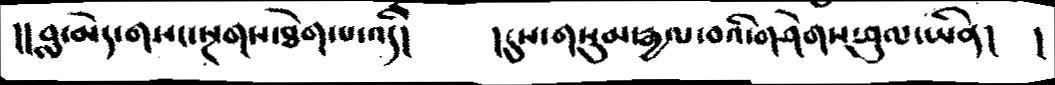།།བླ་མེད་གསང་སྔགས་ཐེག་པ་འདི།   །དུས་གསུམ་རྒྱལ་བའི་གཤེགས་ཤུལ་ཡིན།   །
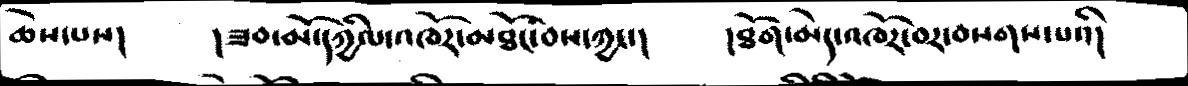ཆེས་པས།   །ཟབ་མོ་དཀྱིལ་འཁོར་མཐོང་བས་ཀྱང་།   །ཐོག་མེད་འཁོར་བར་བསགས་པའི།
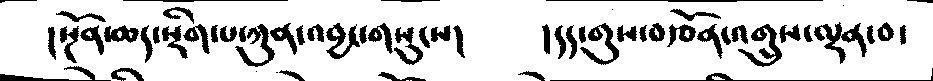།སྔོན་ཆད་སྡིག་པ་ཀུན་འབྱང་གསུངས།   །དད་གུས་བརྩོན་འགྲུས་ལྡན་བ་
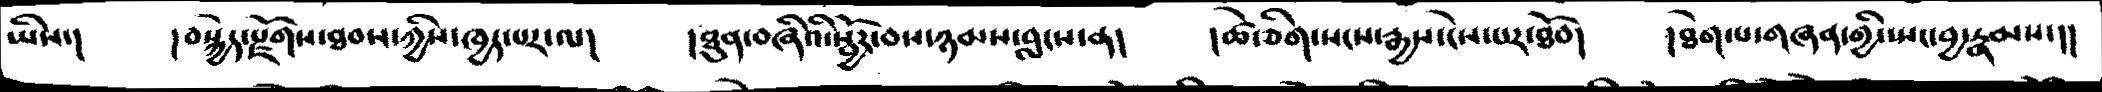ཡིས་།   །བསྐྱེད་རྫོགས་ཐབས་ཀྱིས་ཁྱད་པར་ལ།  །ཐུན་བཞིའི་སྦྱོར་བས་ཉམས་བླངས་ན།   །ཚེ་ཅིག་སངས་རྒྱས་ངེས་པར་ཐོབ།   །ཐེག་པ་གཞན་གྱི་སྤང་བྱ་རྣམས་།།
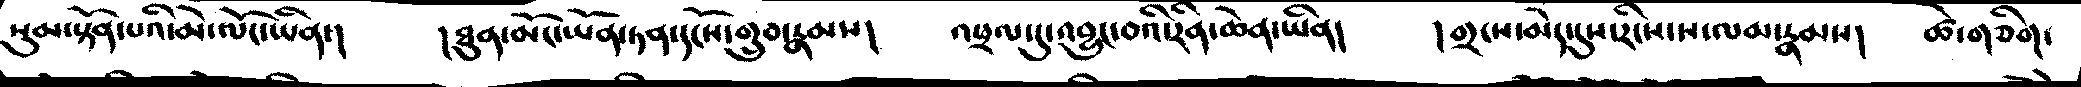སུམ་སྟོན་པའི་མེ་ལོང་ཡིན་།    །ཐུན་མོང་ཡོན་ཏན་དངོས་གྲུབ་རྣམས།  འཕྲལ་དུ་འབྱུང་བའི་རིན་ཆེན་ཡིན།   །གྲངས་མེད་དུས་རིངས་ས་ལམ་རྣམས།   ཚེ་གཅིག་
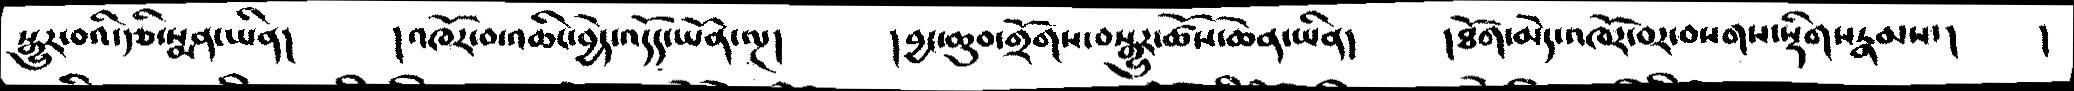སྒྱུར་བའི་རྩི་སྨན་ཡིན།    །འཁོར་བ་འཆིང་བྱེད་འདོད་ཡོན་ལྔ།   །བྱང་ཆུབ་གྲོགས་བསྒྱུར་ཚོས་ཆེན་ཡིན།   །ཐོག་མེད་འཁོར་བར་བསགས་སྡིགས་རྣམས་།   །
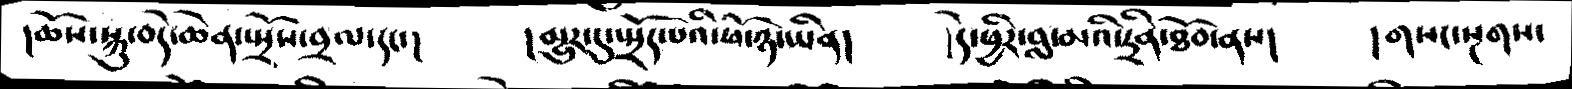།ཆོས་སྐུ་བདེ་ཆེན་སྤྲོས་བྲལ་དང་།      །མྱུར་དུ་སྤྲོད་པའི་ཕོ་ཉ་ཡིན།   །དེ་ཕྱིར་བླ་མའི་དྲིན་ཐོབ་ནས།    །གསང་སྔགས་
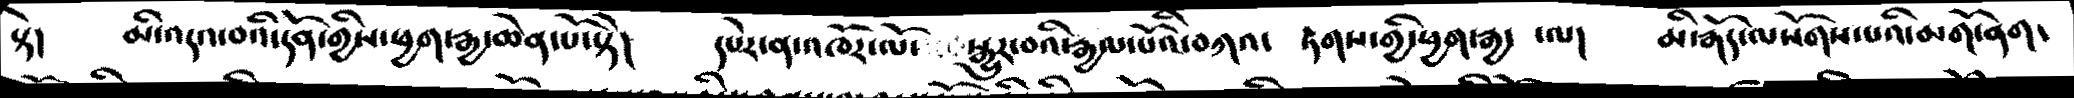སྟེ།    མི་འདའ་བའི་དོན་གྱིས་ཕྱག་རྒྱ་ཆེན་པོ་སྟེ།    དཔེར་ན་འཁོར་ལོ་སྒྱུར་བའི་རྒྱལ་པོའི་བཀའ་ རྟགས་གྱི་ཕྱག་རྒྱ་ལ།   མི་རྒོད་ལསོགས་པའི་མགོ་ནག་
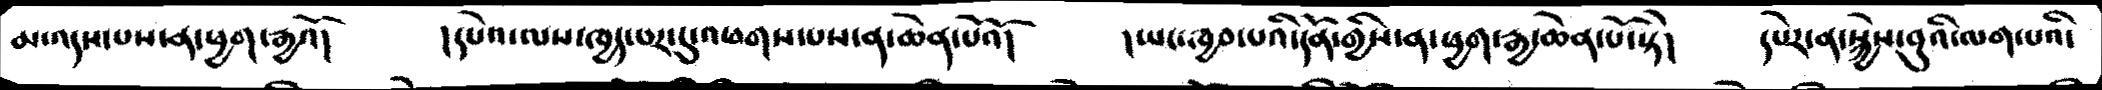མ་འདས་པས་ན་ཕྱག་རྒྱའོ།   །དཔེའ་ལས་ཁྱད་པར་དུ་འཕགས་པས་ན་ཆེན་པོའོ།   །ཡང་ཁྱབ་པའི་དོན་གྱིས་ན་ཕྱག་རྒྱ་ཆེན་པོ་སྟེ།   དཔེར་ན་སྐྱེས་བུའི་ལག་པའི་
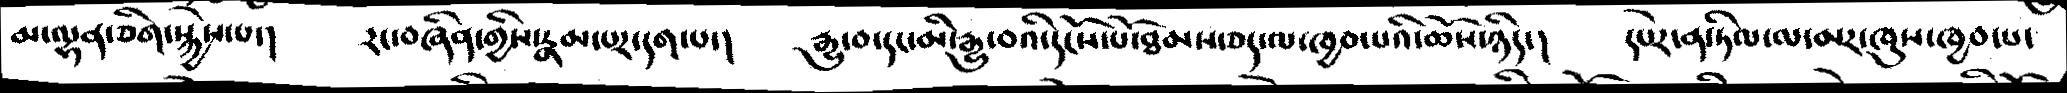མ་ལྷན་ཅིག་སྐྱེས་པ་།   རང་བཞིན་གྱིས་རྣམ་པར་དག་པ་།   རྒྱུ་བ་དང་མི་རྒྱུ་བའི་དངོས་པོ་ཐམས་ཅད་ལ་ཁྱབ་པའི་ཆོས་ཉིད་།   དཔེར་ན་ཏིལ་ལ་མར་ཁུས་ཁྱབ་པ་
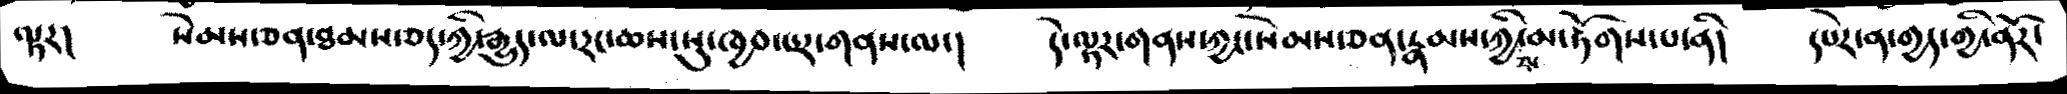ལྟར།   སེམས་ཅན་ཐམས་ཅད་ཀྱི་རྒྱུད་ལ་རང་ཆས་སུ་ཁྱབ་པར་གནས་ལ་།   དེ་ལྟར་གནས་ཀྱང་སེམས་ཅན་རྣམས་ཀྱིས་མ་རྟོགས་པ་ནི།   དཔེར་ན་གྱད་གྱི་ནོར་
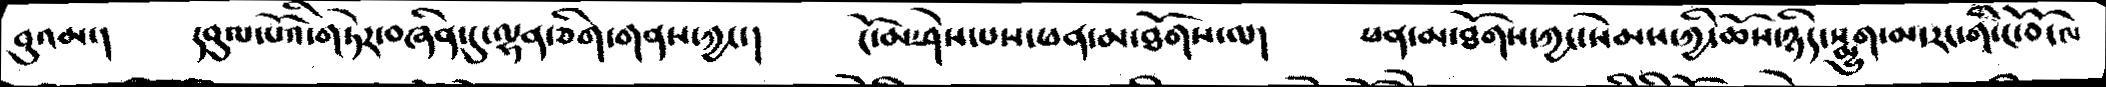བུའམ་།   དབུལ་པོའི་གཏེར་བཞིན་དུ་ལྷན་ཅིག་གནས་ཀྱང་།  ངོ་མ་ཤེས་པས་ཕན་མ་ཐོགས་ལ།   ཕན་མ་ཐོགས་ཀྱང་སེམས་ཀྱི་ཆོས་ཉིད་སྨྱུག་མ་རང་གི་ངོ་བོ་ལ
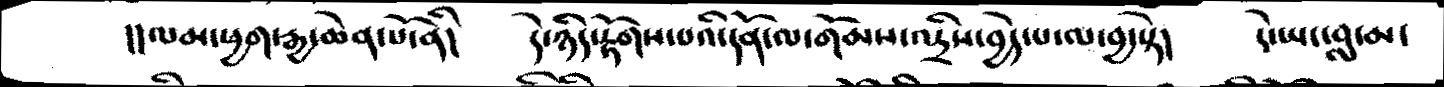།།ལམ་ཕྱག་རྒྱ་ཆེན་པོ་ནི།   དེ་ཉིད་རྟོགས་པའི་ོདན་ལ་གོམས་འདྲིས་བྱེད་པ་ལ་བྱ་སྟེ།   དེ་ཡང་བླ་མ་
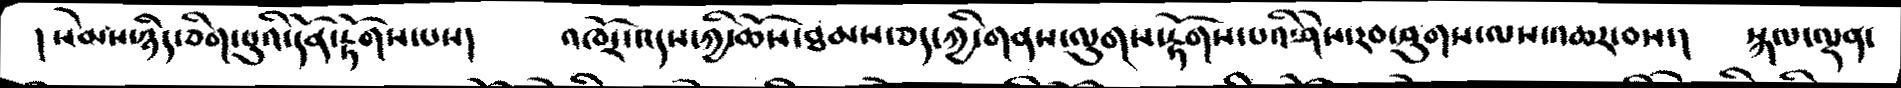།སེམས་ཉིད་ཅིག་པུའི་དོན་རྟོགས་པས།   འཁོར་འདས་ཀྱི་ཆོས་ཐམས་ཅད་ཀྱི་གནས་ལུགས་རྟོགས་པའི་ཤེས་རབ་ཤུགས་ལས་འཆར་བས་།   སྐལ་ལྡན་
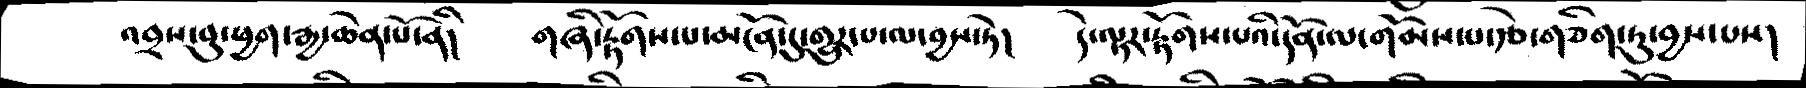འབྲས་བུ་ཕྱག་རྒྱ་ཆེན་པོ་ནི།  གཞི་རྟོགས་པ་མངོན་དུ་གྱུར་པ་ལ་བྱས་ཏེ།  དེ་ལྟར་རྟོགས་པའི་དོན་ལ་གོམས་པ་རྩེ་གཅིག་ཏུ་བྱས་པས།
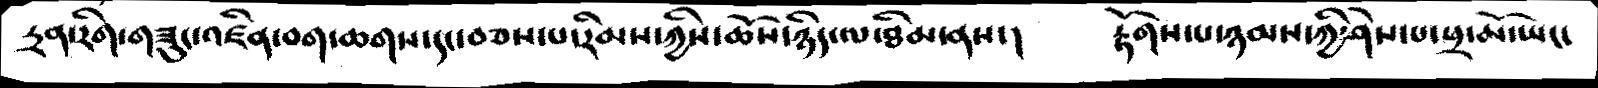དྲན་རིག་གཟུང་འཛིན་བག་ཆགས་དང་བཅས་པ་རིམས་ཀྱིས་ཆོས་ཉིད་ལ་ཐིམ་ནས་།   རྟོགས་པ་ཉམས་ཀྱི་ཤེས་པ་ཕྲ་མོ་ཡང་
